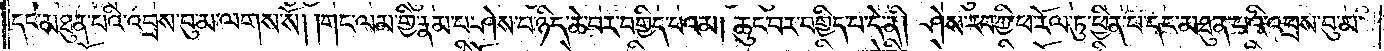དང་མཐུན་པའི་འབྲས་བུ་མ་ལགས་སོ། །གང་ལམ་གྱི་རྣམ་པ་ཤེས་པ་ཉིད་ཆེ་བར་བགྱིད་པའམ། ཆུང་བར་བགྱིད་པ་དེ་ནི། ཤེས་རབ་ཀྱི་ཕ་རོལ་ཏུ་ཕྱིན་པ་དང་མཐུན་པའི་འབྲས་བུ་མ་
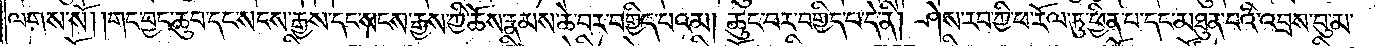ལགས་སོ། །གང་བྱང་ཆུབ་དང་སངས་རྒྱས་དང་སངས་རྒྱས་ཀྱི་ཆོས་རྣམས་ཆེ་བར་བགྱིད་པའམ། ཆུང་བར་བགྱིད་པ་དེ་ནི། ཤེས་རབ་ཀྱི་ཕ་རོལ་ཏུ་ཕྱིན་པ་དང་མཐུན་པའི་འབྲས་བུ་མ་
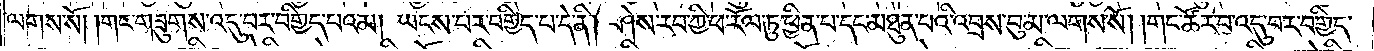ལགས་སོ། །གང་གཟུགས་འདུ་བར་བགྱིད་པའམ། ཡངས་པར་བགྱིད་པ་དེ་ནི། ཤེས་རབ་ཀྱི་ཕ་རོལ་ཏུ་ཕྱིན་པ་དང་མཐུན་པའི་འབྲས་བུ་མ་ལགས་སོ། །གང་ཚོར་བ་འདུ་བར་བགྱིད་
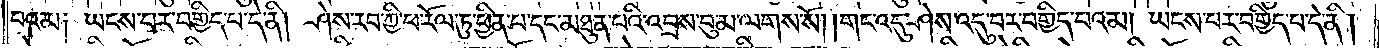པའམ༑ ཡངས་པར་བགྱིད་པ་དེ་ནི། ཤེས་རབ་ཀྱི་ཕ་རོལ་ཏུ་ཕྱིན་པ་དང་མཐུན་པའི་འབྲས་བུ་མ་ལགས་སོ། །གང་འདུ་ཤེས་འདུ་བར་བགྱིད་པའམ། ཡངས་པར་བགྱིད་པ་དེ་ནི།
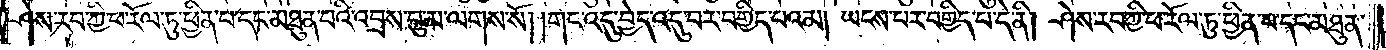ཤེས་རབ་ཀྱི་ཕ་རོལ་ཏུ་ཕྱིན་པ་དང་མཐུན་པའི་འབྲས་བུ་མ་ལགས་སོ། །གང་འདུ་བྱེད་འདུ་བར་བགྱིད་པའམ། ཡངས་པར་བགྱིད་པ་དེ་ནི། ཤེས་རབ་ཀྱི་ཕ་རོལ་ཏུ་ཕྱིན་པ་དང་མཐུན་
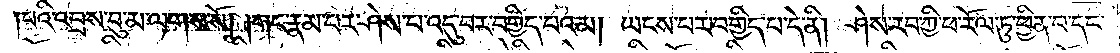པའི་འབྲས་བུ་མ་ལགས་སོ། །གང་རྣམ་པར་ཤེས་པ་འདུ་བར་བགྱིད་པའམ། ཡངས་པར་བགྱིད་པ་དེ་ནི། ཤེས་རབ་ཀྱི་ཕ་རོལ་ཏུ་ཕྱིན་པ་དང་
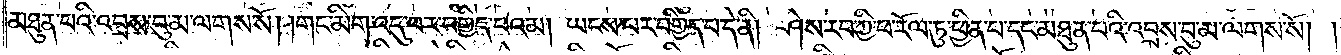མཐུན་པའི་འབྲས་བུ་མ་ལགས་སོ། །གང་མིག་འདུ་བར་བགྱིད་པའམ། ཡངས་པར་བགྱིད་པ་དེ་ནི། ཤེས་རབ་ཀྱི་ཕ་རོལ་ཏུ་ཕྱིན་པ་དང་མཐུན་པའི་འབྲས་བུ་མ་ལགས་སོ། །
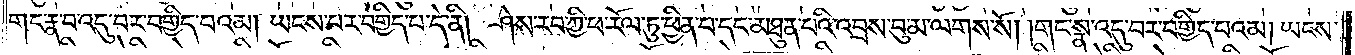གང་རྣ་བ་འདུ་བར་བགྱིད་པའམ། ཡངས་པར་བགྱིད་པ་དེ་ནི། ཤེས་རབ་ཀྱི་ཕ་རོལ་ཏུ་ཕྱིན་པ་དང་མཐུན་པའི་འབྲས་བུ་མ་ལགས་སོ། །གང་སྣ་འདུ་བར་བགྱིད་པའམ། ཡངས་
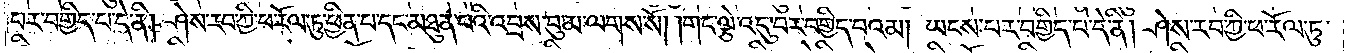པར་བགྱིད་པ་དེ་ནི། ཤེས་རབ་ཀྱི་ཕ་རོལ་ཏུ་ཕྱིན་པ་དང་མཐུན་པའི་འབྲས་བུ་མ་ལགས་སོ། །གང་ལྕེ་འདུ་བར་བགྱིད་པའམ། ཡངས་པར་བགྱིད་པ་དེ་ནི། ཤེས་རབ་ཀྱི་ཕ་རོལ་ཏུ་
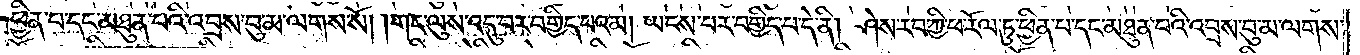ཕྱིན་པ་དང་མཐུན་པའི་འབྲས་བུ་མ་ལགས་སོ། །གང་ལུས་འདུ་བར་བགྱིད་པའམ། ཡངས་པར་བགྱིད་པ་དེ་ནི། ཤེས་རབ་ཀྱི་ཕ་རོལ་ཏུ་ཕྱིན་པ་དང་མཐུན་པའི་འབྲས་བུ་མ་ལགས་
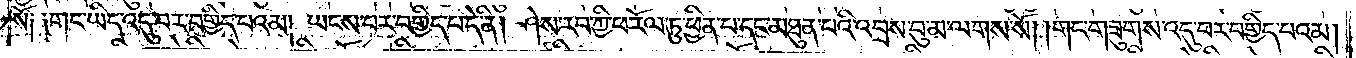སོ༑ ༑གང་ཡིད་འདུ་བར་བགྱིད་པའམ། ཡངས་པར་བགྱིད་པ་དེ་ནི། ཤེས་རབ་ཀྱི་ཕ་རོལ་ཏུ་ཕྱིན་པ་དང་མཐུན་པའི་འབྲས་བུ་མ་ལགས་སོ། །གང་གཟུགས་འདུ་བར་བགྱིད་པའམ།
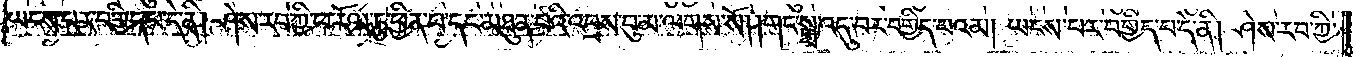ཡངས་པར་བགྱིད་པ་དེ་ནི། ཤེས་རབ་ཀྱི་ཕ་རོལ་ཏུ་ཕྱིན་པ་དང་མཐུན་པའི་འབྲས་བུ་མ་ལགས་སོ། །གང་སྒྲ་འདུ་བར་བགྱིད་པའམ། ཡངས་པར་བགྱིད་པ་དེ་ནི། ཤེས་རབ་ཀྱི་
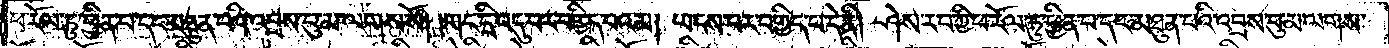ཕ་རོལ་ཏུ་ཕྱིན་པ་དང་མཐུན་པའི་འབྲས་བུ་མ་ལགས་སོ། །གང་དྲི་འདུ་བར་བགྱིད་པའམ། ཡངས་པར་བགྱིད་པ་དེ་ནི། ཤེས་རབ་ཀྱི་ཕ་རོལ་ཏུ་ཕྱིན་པ་དང་མཐུན་པའི་འབྲས་བུ་མ་ལགས་
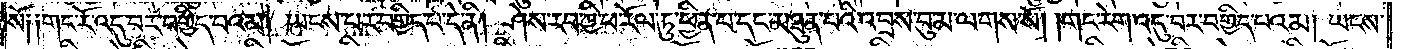སོ༑ ༑གང་རོ་འདུ་བར་བགྱིད་པའམ། ཡངས་པར་བགྱིད་པ་དེ་ནི། ཤེས་རབ་ཀྱི་ཕ་རོལ་ཏུ་ཕྱིན་པ་དང་མཐུན་པའི་འབྲས་བུ་མ་ལགས་སོ། །གང་རེག་འདུ་བར་བགྱིད་པའམ། ཡངས་
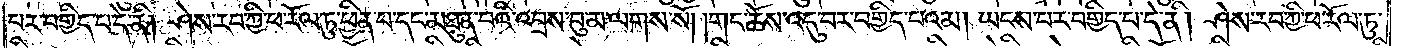པར་བགྱིད་པ་དེ་ནི། ཤེས་རབ་ཀྱི་ཕ་རོལ་ཏུ་ཕྱིན་པ་དང་མཐུན་པའི་འབྲས་བུ་མ་ལགས་སོ། །གང་ཆོས་འདུ་བར་བགྱིད་པའམ། ཡངས་པར་བགྱིད་པ་དེ་ནི། ཤེས་རབ་ཀྱི་ཕ་རོལ་ཏུ་
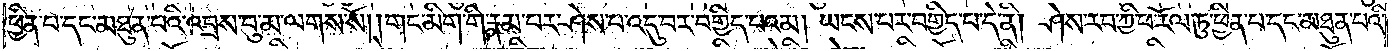ཕྱིན་པ་དང་མཐུན་པའི་འབྲས་བུ་མ་ལགས་སོ། །གང་མིག་གི་རྣམ་པར་ཤེས་པ་འདུ་བར་བགྱིད་པའམ། ཡངས་པར་བགྱིད་པ་དེ་ནི། ཤེས་རབ་ཀྱི་ཕ་རོལ་ཏུ་ཕྱིན་པ་དང་མཐུན་པའི་
